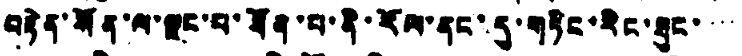བརྟེན་སོན་ལ་ལྗང་པ་ཐོན་པ་ནི་རོལ་ནང་དུ་གཏིང་རིང་ཐུང་་་་
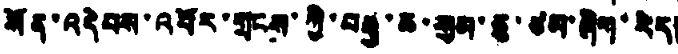སོན་འདེབས་འབོར་གྲངས་ཀྱི་བརྒྱ་ཆ་སུམ་ཅུ་ཙམ་ཞིག་རེད།
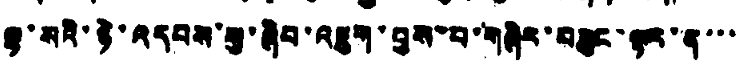ལྷ་སའི་ཉེ་འདབས་སུ་ཞིབ་འཇུག་བྱས་པ་གཞིར་བཟུང་ལྟར་ན་་་
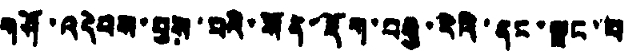གཤོ་འདེབས་བྱས་པའི་སོན་རྡོག་བརྒྱ་རེའི་ནང་ལྗང་པ
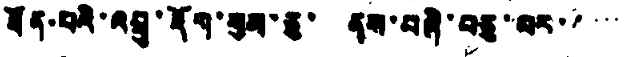ཐོན་པའི་འབྲུ་རྡོག་སུམ་ཅུ་ ནས་བཞི་བཅུ་པར་་་་་
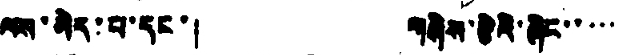ལས་མེད་པ་དང་། གཞིས་རྩེའི་ཞིང་་་་་
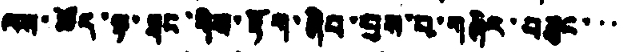ལས་ཚོད་ལྟ་ཐང་གིས་རྟོག་ཞིབ་བྱས་པ་གཞིར་བཟུང་་་
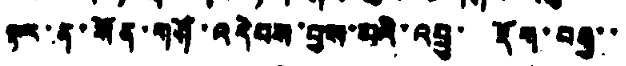ལྟར་ན་སོན་གཤོ་འདེབས་བྱས་པའི་འབྲུ་ རྡོག་བརྒྱ་་
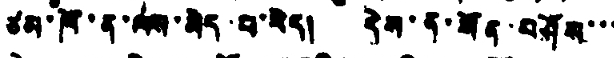ཙམ་ཁོ་ན་ལས་མེད་པ་རེད། དེས་ན་སོན་བཤོས་་་
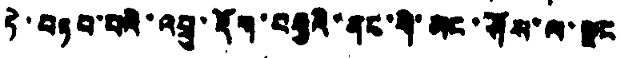ཏེ་བཏབ་པའི་འབྲུ་རྡོག་བརྒྱའི་ནང་གི་མང་ཤོས་ལ་ལྗང
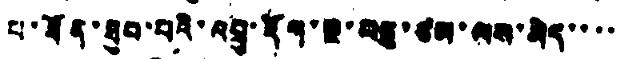པ་ཐོན་ཐུབ་པའི་འབྲུ་རྡོག་ལྔ་བཅུ་ཙམ་ལས་མེད་་་་
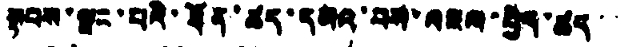སྟབས་ལྗང་པའི་ཐོན་ཚད་དམའ་བས་བཇལ་བྱེད་ཚད་་
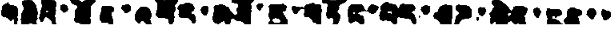གཞིའི་ཐོན་འཕོར་མཐོ་རུ་གཏོང་བར་ཤུཌ་རྐྱེན་ངན་་
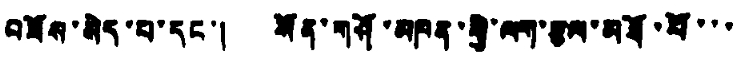བཟོས་མེད་པ་དང་། སོན་གཤོ་མཁན་གྱི་ལག་རྩལ་མཐོ་པོ་་་
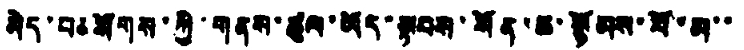མེད་པ་སོགས་ཀྱི་གནས་ཚུལ་ཡོད་སྟབས་སོན་ཆ་སྙོམས་པོ་མ་་
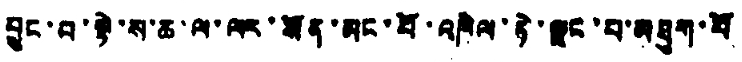བྱུང་བ་སྟེ་ས་ཆ་ལ་ལར་སོན་མང་པོ་འཁེལ་ཏེ་ལྗང་པ་མཐུག་པོ
